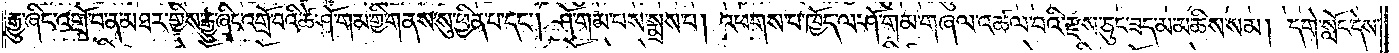རྒྱུ་ཞིང་འགྲོ་བ་ན་མཐར་གྱིས་རྒྱུ་ཞིང་འགྲོ་བའི་ཚེ་ཤོ་གམ་གྱི་གནས་སུ་ཕྱིན་པ་དང༌། ཤོ་གམ་པས་སྨྲས་པ། འཕགས་པ་ཁྱོད་ལ་ཤོ་གམ་གཞལ་འཚལ་བའི་རྫས་ཅུང་ཟད་མ་མཆིས་སམ། དགེ་སློང་དེས་
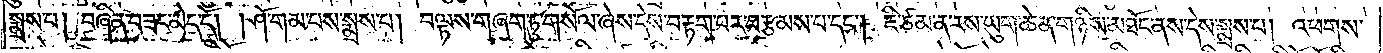སྨྲས་པ། བཞིན་བཟང་མེད་དོ། །ཤོ་གམ་པས་སྨྲས་པ། བལྟས་གཞག་ཏུ་གསོལ་ཞེས་དེས་བརྟག་པར་བརྩམས་པ་དང༌། ཇི་ཙམ་ན་རས་ཡུག་ཆེན་གཉིས་མཐོང་ནས་དེས་སྨྲས་པ། འཕགས་
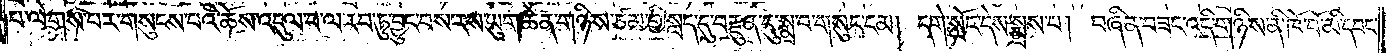པ་ལེགས་པར་གསུངས་པའི་ཆོས་འདུལ་བ་ལ་རབ་ཏུ་བྱུང་བས་རས་ཡུག་ཆེན་གཉིས་ཙམ་གྱི་སླད་དུ་བརྫུན་དུ་སྨྲ་བ་གསུང་ངམ། དགེ་སློང་དེས་སྨྲས་པ། བཞིན་བཟང་འདི་གཉིས་ནི་ཁོ་བོ་མི་དབང་
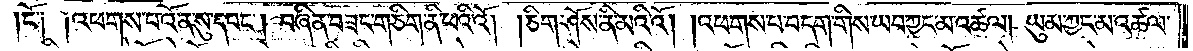ངོ༑ ༑འཕགས་པ་འོ་ན་སུ་དབང༌། བཞིན་བཟང་གཅིག་ནི་ཕའི་འོ། །ཅིག་ཤོས་ནི་མའི་འོ། །འཕགས་པ་བདག་གིས་ཡབ་ཀྱང་མ་འཚལ། ཡུམ་ཀྱང་མ་འཚལ་
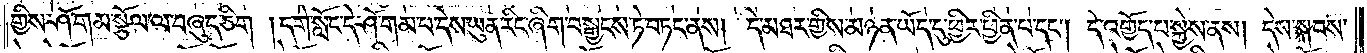གྱིས་ཤོ་གམ་སྩོལ་ལ་བཞུད་ཅིག །དགེ་སློང་དེ་ཤོ་གམ་པ་དེས་ཡུན་རིང་ཞིག་བསྒྱངས་ཏེ་བཏང་ནས། དེ་མཐར་གྱིས་མཉན་ཡོད་དུ་ཕྱིར་ཕྱིན་པ་དང༌། དེ་འགྱོད་པ་སྐྱེས་ནས། དེས་སྐབས་
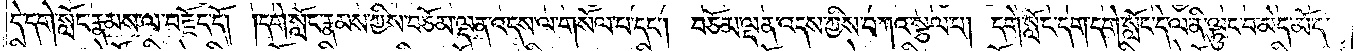དེ་དགེ་སློང་རྣམས་ལ་བརྗོད་དོ། །དགེ་སློང་རྣམས་ཀྱིས་བཅོམ་ལྡན་འདས་ལ་གསོལ་པ་དང༌། བཅོམ་ལྡན་འདས་ཀྱིས་བཀའ་སྩལ་པ། དགེ་སློང་དག་དགེ་སློང་དེ་ལ་ནི་ལྟུང་བ་མེད་མོད་
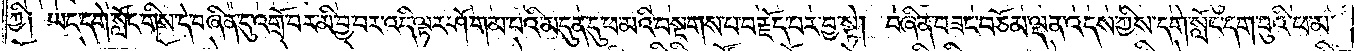ཀྱི༑ ཡང་དགེ་སློང་གིས་དེ་བཞིན་དུ་འགྲོ་བར་མི་བྱ་བར་འདི་ལྟར་ཤོ་གམ་པའི་མདུན་དུ་ཕ་མའི་བསྔགས་པ་བརྗོད་པར་བྱ་སྟེ། བཞིན་བཟང་བཅོམ་ལྡན་འདས་ཀྱིས་དགེ་སློང་དག་བུའི་ཕ་མ་
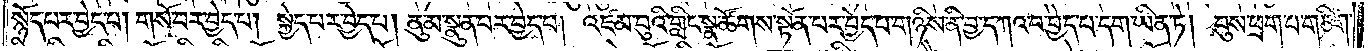སྙོད་པར་བྱེད་པ། གསོ་བར་བྱེད་པ། སྐྱེད་པར་བྱེད་པ། ནུ་མ་སྣུན་པར་བྱེད་པ། འཛམ་བུའི་གླིང་སྣ་ཚོགས་སྟོན་པར་བྱེད་པ་གཉིས་ནི་བྱ་དཀའ་བ་བྱེད་པ་དག་ཡིན་ཏེ། བུས་ཕྲག་པ་གཅིག་
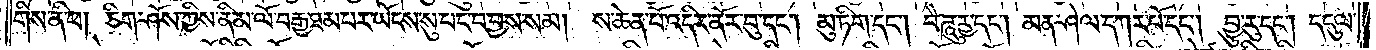གིས་ནི་ཕ། ཅིག་ཤོས་ཀྱིས་ནི་མ་ལོ་བརྒྱ་ཐམ་པར་ཡོངས་སུ་པང་བ་བྱས་སམ། ས་ཆེན་པོ་འདིར་ནོར་བུ་དང༌། མུ་ཏིག་དང༌། བཻ་ཌཱུཪྻ་དང༌། མན་ཤེལ་དཀར་པོ་དང༌། བྱུ་རུ་དང༌། དངུལ་
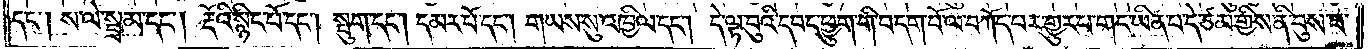དང༌། ས་ལེ་སྦྲམ་དང༌། རྡོའི་སྙིང་པོ་དང༌། སྤུག་དང༌། དམར་པོ་དང༌། གཡས་སུ་འཁྱིལ་དང༌། དེ་ལྟ་བུའི་དབང་ཕྱུག་གི་བདག་པོ་ལ་བཀོད་པར་གྱུར་པ་གང་ཡིན་པ་དེ་ཙམ་གྱིས་ནི་བུས་ཕ་
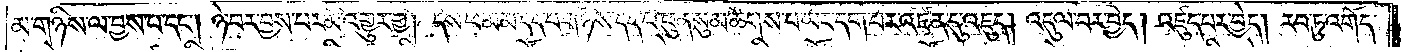མ་གཉིས་ལ་བྱས་པ་དང༌། ཉེ་བར་བྱས་པར་མི་འགྱུར་གྱི། དེས་ཕ་མ་མ་དད་པ་གཉིས་དད་པ་ཕུན་སུམ་ཚོགས་པ་ཡང་དག་པར་འཛིན་དུ་འཇུད། འདུལ་བར་བྱེད། འཛུད་པར་བྱེད། རབ་ཏུ་འགོད་
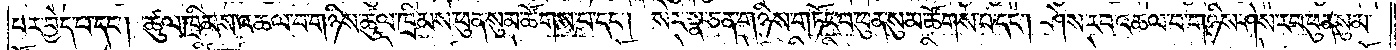པར་བྱེད་པ་དང༌། ཚུལ་ཁྲིམས་འཆལ་བ་གཉིས་ཚུལ་ཁྲིམས་ཕུན་སུམ་ཚོགས་པ་དང༌། སེར་སྣ་ཅན་གཉིས་གཏོང་བ་ཕུན་སུམ་ཚོགས་པ་དང༌། ཤེས་རབ་འཆལ་བ་གཉིས་ཤེས་རབ་ཕུན་སུམ་
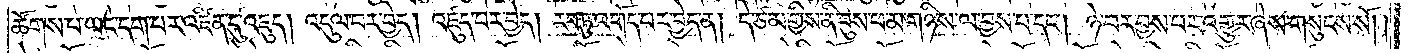ཚོགས་པ་ཡང་དག་པར་འཛིན་དུ་འཇུད། འདུལ་བར་བྱེད། འཛུད་པར་བྱེད། རབ་ཏུ་འགོད་པར་བྱེད་ན། དེ་ཙམ་གྱིས་ནི་བུས་ཕ་མ་གཉིས་ལ་བྱས་པ་དང༌། ཉེ་བར་བྱས་པར་འགྱུར་ཞེས་གསུངས་སོ། །
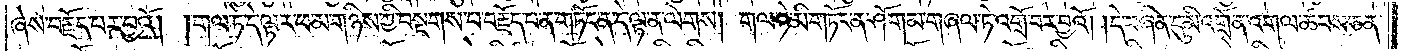ཞེས་བརྗོད་པར་བྱའོ། །གལ་ཏེ་དེ་ལྟར་ཕ་མ་གཉིས་ཀྱི་བསྔགས་པ་བརྗོད་པ་ན་གཏོང་ན་དེ་ལྟ་ན་ལེགས། གལ་ཏེ་མི་གཏོང་ན་ཤོ་གམ་གཞལ་ཏེ་འགྲོ་བར་བྱའོ། །དེ་བཞིན་དུ་མི་འགྲོ་ན་འགལ་ཚབས་ཅན་
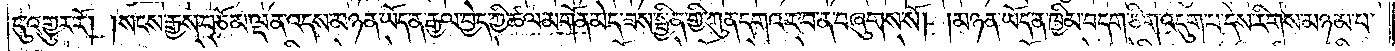དུ་འགྱུར་རོ། །སངས་རྒྱས་བཅོམ་ལྡན་འདས་མཉན་ཡོད་ན་རྒྱལ་བྱེད་ཀྱི་ཚལ་མགོན་མེད་ཟས་སྦྱིན་གྱི་ཀུན་དགའ་ར་བ་ན་བཞུགས་སོ། །མཉན་ཡོད་ན་ཁྱིམ་བདག་ཅིག་འདུག་པ་དེས་རིགས་མཉམ་པ་
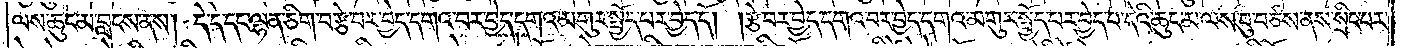ལས་ཆུང་མ་བླངས་ནས། དེ་དེ་དང་ལྷན་ཅིག་བརྩེ་བར་བྱེད་དགའ་བར་བྱེད་དགའ་མགུར་སྤྱོད་པར་བྱེད་དོ། །རྩེ་བར་བྱེད་དགའ་བར་བྱེད་དགའ་མགུར་སྤྱོད་པར་བྱེད་པ་དེའི་ཆུང་མ་ལས་བུ་བཙས་ནས་སྲིང་པར་
